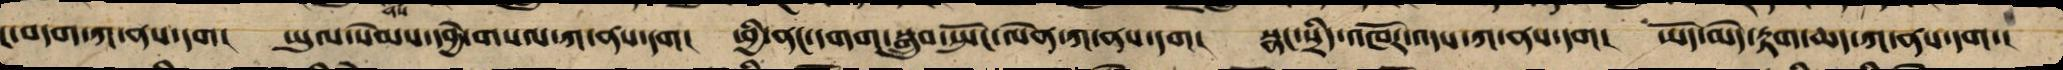ང་བདག་ཀ་ནས་དག། ཡུལ་སེམས་དབྱེ་གསལ་ཀ་ནས་དག། ཕྱི་ནང་དགག་སྒྲུབ་སྤོང་ལེན་ཀ་ནས་དག། སྣང་སྲིད་འཁོར་འདས་ཀ་ནས་དག། ཡོད་མེད་རྟག་ཆད་ཀ་ནས་དག་།
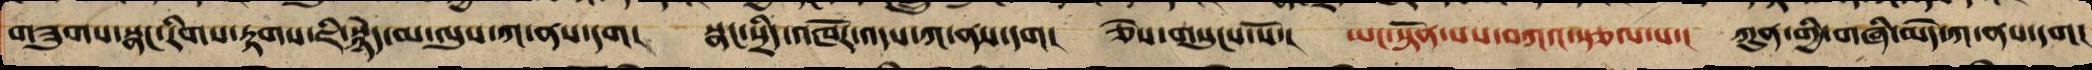གཟུགས་སྣང་རིག་རྟགས་ཇི་སྙེད་མ་ལུས་ཀ་ནས་དག། སྣང་སྲིད་འཁོར་འདས་ཀ་ནས་དག། ཅེས་གསུངས་སོ་། ཡང་སྟོན་པས་བཀའ་སྩལ་པ་། ཀུན་གྱི་གཞི་མེད་ཀ་ནས་དག།
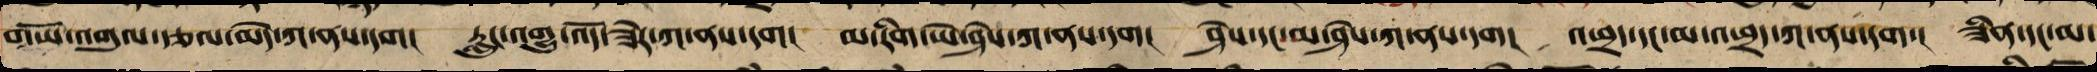གཡོ་འགུལ་རྩལ་མེད་ཀ་ནས་དག། རླུང་འགྱུ་འོད་ཟེར་ཀ་ནས་དག། མ་རིག་ཡེ་ཤེས་ཀ་ནས་དག། ཤེས་དང་མ་ཤེས་ཀ་ནས་དག། འཕྲད་དང་མ་འཕྲད་ཀ་ནས་དག་། ཟིན་དང་མ་
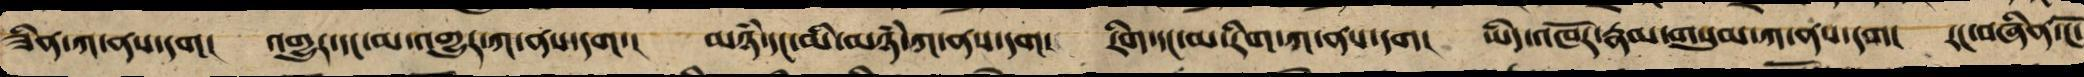ཟིན་ཀ་ནས་དག། འགྱུར་དང་མ་འགྱུར་ཀ་ནས་དག་། མཉཾ་དང་མི་མཉཾ་ཀ་ནས་དག། རིག་དང་མ་རིག་ཀ་ནས་དག། ཡིད་འཁོར་རྣམ་གསུམ་ཀ་ནས་དག། རང་བཞིན་ངོ་
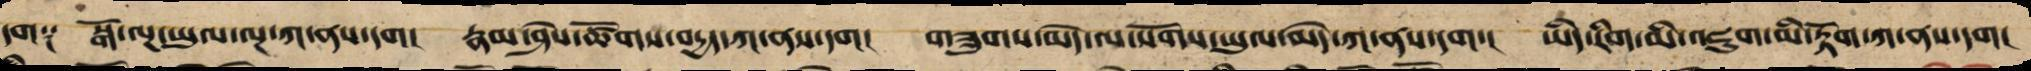དག༑ སྒོ་ལྔ་ཡུལ་ལྔ་ཀ་ནས་དག། རྣམ་ཤེས་ཚོགས་བརྒྱད་ཀ་ནས་དག། གཟུགས་མེད་ལ་སོགས་ཡུལ་མེད་ཀ་ནས་དག་། ཡིད་རིག་མི་འཇུག་མི་རྟོག་ཀ་ནས་དག།
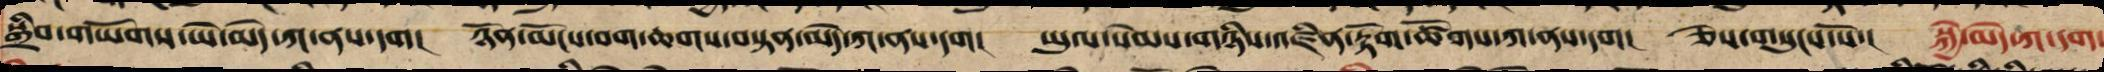སྒྲིབ་གཡོགས་ཡེ་མེད་ཀ་ནས་དག། ཉོན་མོངས་བག་ཆགས་བསྟན་མེད་ཀ་ནས་དག། ཡུལ་སེམས་གཉིས་འཛིན་རྟོག་ཚོགས་ཀ་ནས་དག། ཅེས་གསུངས་སོ་། སྐྱེ་མེད་ཀ་དག་
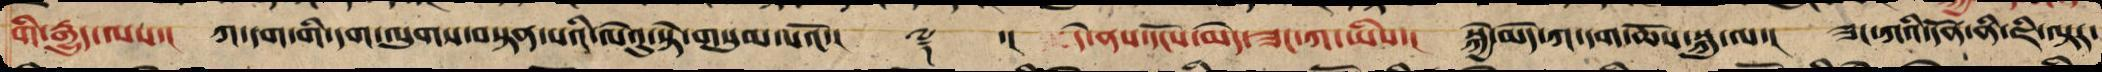གི་རྒྱུད་ལས་། ཀ་དག་གི་དག་ལུགས་བསྟན་པའི་ལེའུ་སྟེ་གསུམ་པའོ་།། ༈ ་། དེ་ནས་དངོས་མེད་ཟང་ཀ་ཡིས་། སྐྱེ་མེད་ཀ་དག་ཆོས་སྐུ་ལ་། ཟང་ཀའི་དོན་ནི་ཇི་ལྟར་
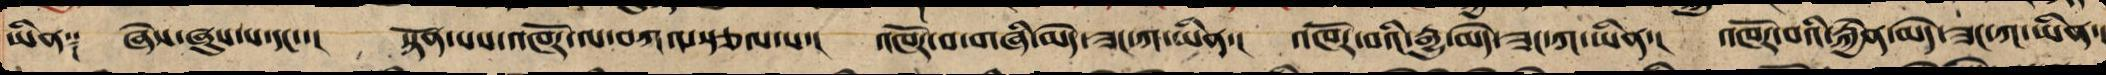ཡིན༑ ཞེས་ཞུས་པ་དང་་། སྟོན་པས་འཁོར་ལ་བཀའ་སྩལ་པ་། འཁོར་བ་གཞི་མེད་ཟང་ཀ་ཡིན་། འཁོར་བའི་རྒྱུ་མེད་ཟང་ཀ་ཡིན་། འཁོར་བའི་རྐྱེན་མེད་ཟང་ཀ་ཡིན་།
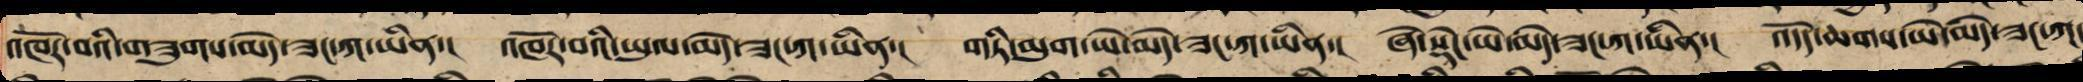འཁོར་བའི་གཟུགས་མེད་ཟང་ཀ་ཡིན་། འཁོར་བའི་ཡུལ་མེད་ཟང་ཀ་ཡིན་། གཏི་མུག་ཡེ་མེད་ཟང་ཀ་ཡིན་། ཞེ་སྡང་ཡེ་མེད་ཟང་ཀ་ཡིན་། འདོད་ཆགས་ཡེ་མེད་ཟང་ཀ་
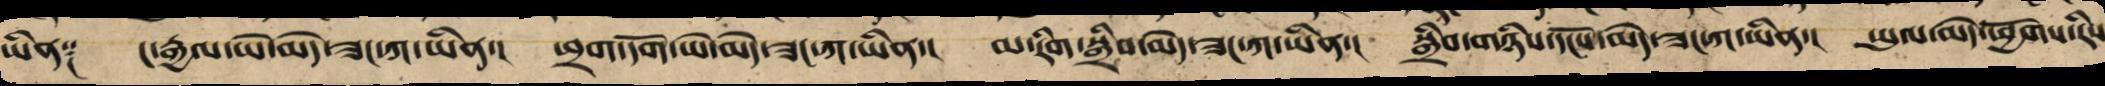ཡིན༑ ང་རྒྱལ་ཡེ་མེད་ཟང་ཀ་ཡིན་། ཕྲག་དོག་ཡེ་མེད་ཟང་ཀ་ཡིན་། མ་རིག་སྒྲིབ་མེད་ཟང་ཀ་ཡིན་། སྒྲིབ་གཉིས་དངོས་མེད་ཟང་ཀ་ཡིན་། ཡུལ་མེད་ཕྱོགས་རིས
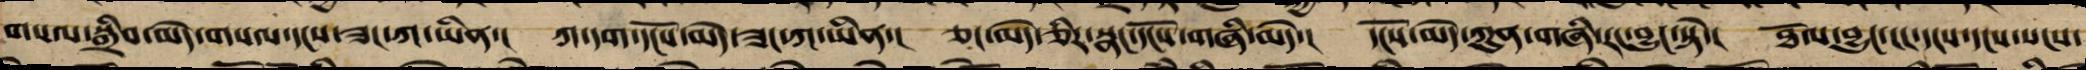གསལ་སྒྲིབ་མེད་གསལ་དངས་ཟང་ཀ་ཡིན་། ཀ་དག་དངོས་མེད་ཟང་ཀ་ཡིན་། ཅང་མེད་ཅིར་སྣང་དངོས་གཞི་མེད་། དངོས་མེད་ཀུན་གཞི་རང་བྱུང་སྟེ་། ཐོལ་བྱུང་ངང་དངས་དངས་སངས་
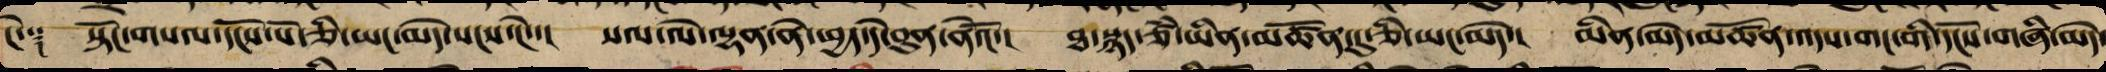ངེ་༑ སྟོང་གསལ་དངོས་པོ་ཅི་ཡང་མེད་སངས་ངེ་་། སལ་ལེ་ལྷན་ནེ་ཕྱད་དེ་བུན་ནེའོ་། ཐ་སྙད་ཙཾ་ཡིན་མཚོན་དུ་ཅི་ཡང་མེད་། མིན་མེད་མཚོན་འདས་གང་གི་དངོས་གཞི་མེད་
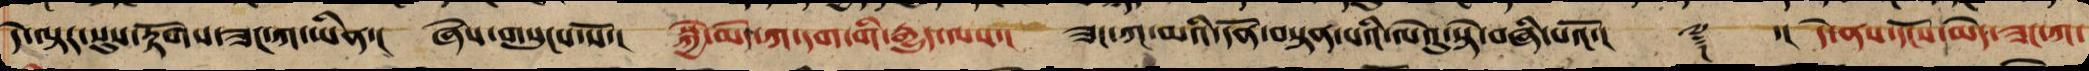དེ་ལྟར་སུས་རྟོགས་ཟང་ཀ་ཡིན་། ཞེས་གསུངས་སོ་། སྐྱེ་མེད་ཀ་དག་གི་རྒྱུད་ལས་། ཟང་ཀ་མའི་དོན་བསྟན་པའི་ལེའུ་སྟེ་བཞི་པའོ་།། ༈ ་། དེ་ནས་དངོས་མེད་ཟང་ཀ་
